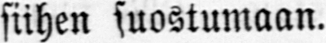siihen suostumaan.
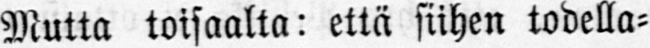Mutta toisaalta: että siihen todella-
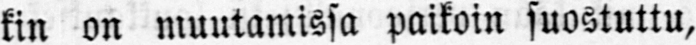kin on muutamissa paikoin suostuttu,
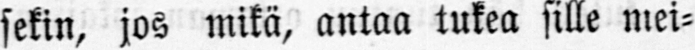sekin, jos mikä, antaa tukea sille mei-
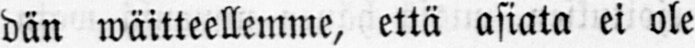dän wäitteellemme, että asiata ei ole
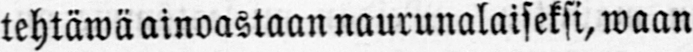tehtäwä ainoastaan naurunalaiseksi, waan
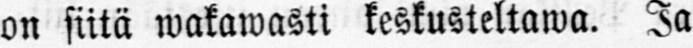on siitä wakawasti keskusteltawa. Ja
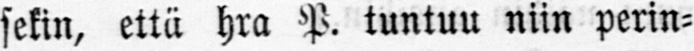sekin, että hra P. tuntuu niin perin-
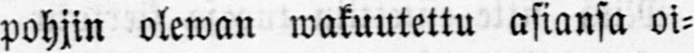pohjin olewan wakuutettu asiansa oi-
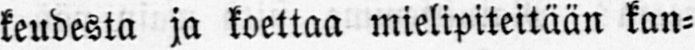keudesta ja koettaa mielipiteitään kan-
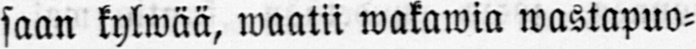saan kylwää, waatii wakawia wastapuo-
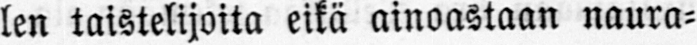len taistelijoita eikä ainoastaan naura-
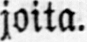jatta.
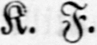K. F.
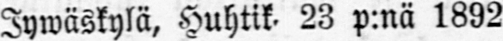Jywäskylä, Huhtik. 23 p:nä 1892.
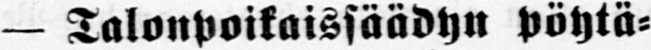— Talonpoikaissäädyn pöytä-
